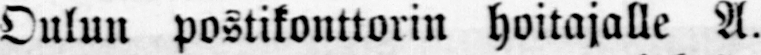Oulun postikonttorin hoitajalle A.
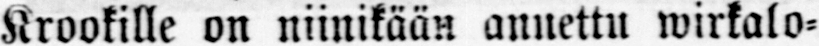Krookille on niinikään annettu wirkalo-
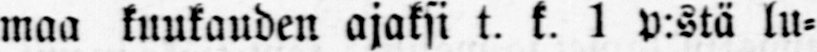maa kuukauden ajaksi t. k. 1 v:stä lu-
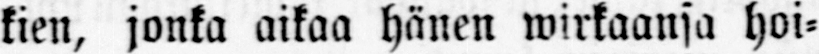kien, jonka aikaa hänen wirkaansa hoi-
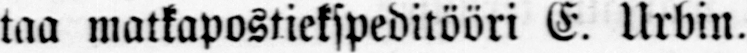taa matkapostiekspeditööri E. Urbin.
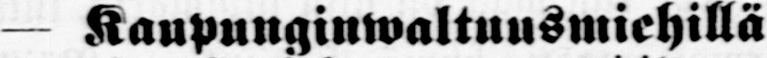— Kaupunginwaltuusmiehillä
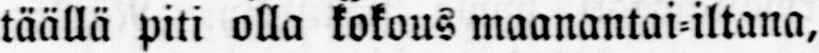täällä piti olla kokous maanantai-iltana,
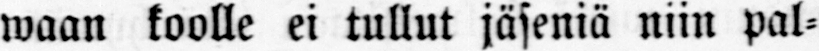waan koolle ei tullut jäseniä niin pal-
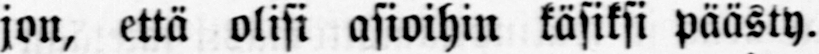jon, että olisi asioihin käsiksi päästy.
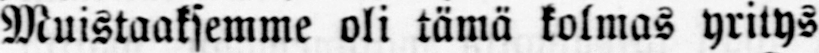Muistaaksemme oli tämä kolmas yritys
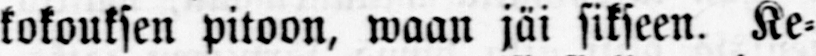kokouksen pitoon, waan jäi sikseen. Ke-
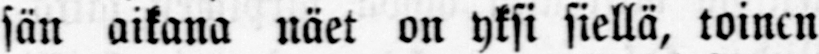sän aikana näet on yksi siellä, toinen
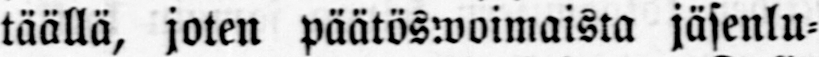täällä, joten päätöswoimaista jäsenlu-
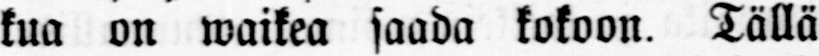kua on waikea saada kokoon. Tällä
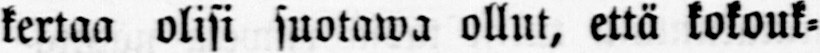kertaa olisi suotawa ollut, että kokouk-
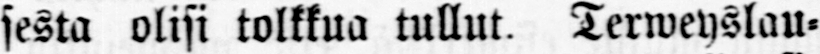sesta olisi tolkkua tullut. Terweyslau-
